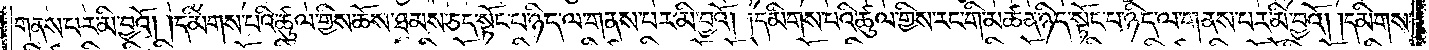གནས་པར་མི་བྱའོ། །དམིགས་པའི་ཚུལ་གྱིས་ཆོས་ཐམས་ཅད་སྟོང་པ་ཉིད་ལ་གནས་པར་མི་བྱའོ། །དམིགས་པའི་ཚུལ་གྱིས་རང་གི་མཚན་ཉིད་སྟོང་པ་ཉིད་ལ་གནས་པར་མི་བྱའོ། །དམིགས་
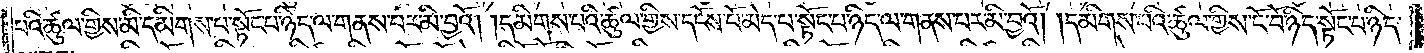པའི་ཚུལ་གྱིས་མི་དམིགས་པ་སྟོང་པ་ཉིད་ལ་གནས་པར་མི་བྱའོ། །དམིགས་པའི་ཚུལ་གྱིས་དངོས་པོ་མེད་པ་སྟོང་པ་ཉིད་ལ་གནས་པར་མི་བྱའོ། །དམིགས་པའི་ཚུལ་གྱིས་ངོ་བོ་ཉིད་སྟོང་པ་ཉིད་
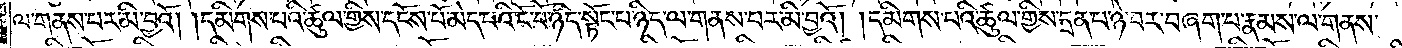ལ་གནས་པར་མི་བྱའོ། །དམིགས་པའི་ཚུལ་གྱིས་དངོས་པོ་མེད་པའི་ངོ་བོ་ཉིད་སྟོང་པ་ཉིད་ལ་གནས་པར་མི་བྱའོ། །དམིགས་པའི་ཚུལ་གྱིས་དྲན་པ་ཉེ་བར་བཞག་པ་རྣམས་ལ་གནས་
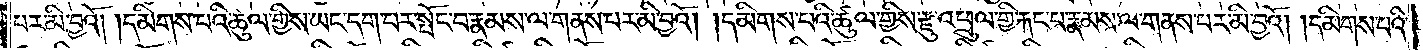པར་མི་བྱའོ། །དམིགས་པའི་ཚུལ་གྱིས་ཡང་དག་པར་སྤོང་བ་རྣམས་ལ་གནས་པར་མི་བྱའོ། །དམིགས་པའི་ཚུལ་གྱིས་རྫུ་འཕྲུལ་གྱི་རྐང་པ་རྣམས་ལ་གནས་པར་མི་བྱའོ། །དམིགས་པའི་
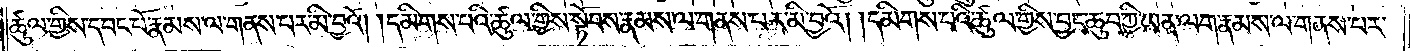ཚུལ་གྱིས་དབང་པོ་རྣམས་ལ་གནས་པར་མི་བྱའོ། །དམིགས་པའི་ཚུལ་གྱིས་སྟོབས་རྣམས་ལ་གནས་པར་མི་བྱའོ། །དམིགས་པའི་ཚུལ་གྱིས་བྱང་ཆུབ་ཀྱི་ཡན་ལག་རྣམས་ལ་གནས་པར་
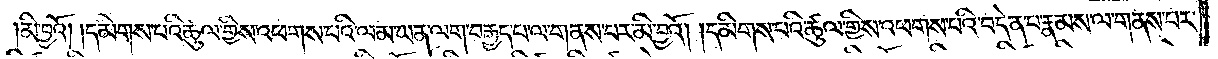མི་བྱའོ། །དམིགས་པའི་ཚུལ་གྱིས་འཕགས་པའི་ལམ་ཡན་ལག་བརྒྱད་པ་ལ་གནས་པར་མི་བྱའོ། །དམིགས་པའི་ཚུལ་གྱིས་འཕགས་པའི་བདེན་པ་རྣམས་ལ་གནས་པར་
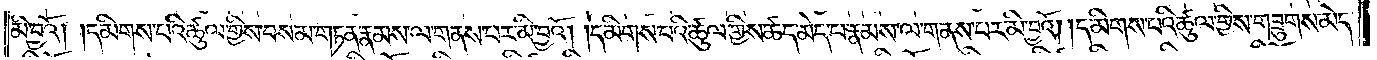མི་བྱའོ། །དམིགས་པའི་ཚུལ་གྱིས་བསམ་གཏན་རྣམས་ལ་གནས་པར་མི་བྱའོ། །དམིགས་པའི་ཚུལ་གྱིས་ཚད་མེད་པ་རྣམས་ལ་གནས་པར་མི་བྱའོ། །དམིགས་པའི་ཚུལ་གྱིས་གཟུགས་མེད་
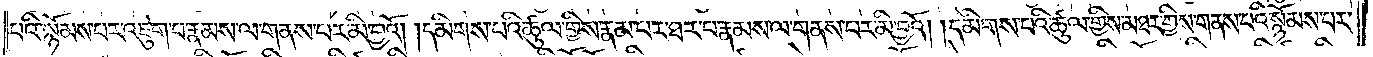པའི་སྙོམས་པར་འཇུག་པ་རྣམས་ལ་གནས་པར་མི་བྱའོ། །དམིགས་པའི་ཚུལ་གྱིས་རྣམ་པར་ཐར་པ་རྣམས་ལ་གནས་པར་མི་བྱའོ། །དམིགས་པའི་ཚུལ་གྱིས་མཐར་གྱིས་གནས་པའི་སྙོམས་པར་
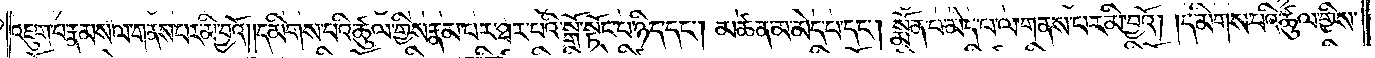འཇུག་པ་རྣམས་ལ་གནས་པར་མི་བྱའོ། །དམིགས་པའི་ཚུལ་གྱིས་རྣམ་པར་ཐར་པའི་སྒོ་སྟོང་པ་ཉིད་དང༌། མཚན་མ་མེད་པ་དང༌། སྨོན་པ་མེད་པ་ལ་གནས་པར་མི་བྱའོ། །དམིགས་པའི་ཚུལ་གྱིས་
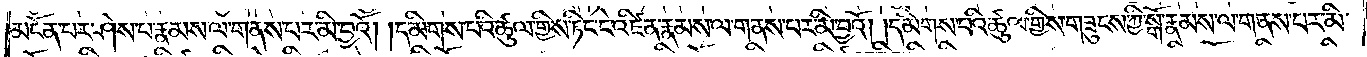མངོན་པར་ཤེས་པ་རྣམས་ལ་གནས་པར་མི་བྱའོ། །དམིགས་པའི་ཚུལ་གྱིས་ཏིང་ངེ་འཛིན་རྣམས་ལ་གནས་པར་མི་བྱའོ། །དམིགས་པའི་ཚུལ་གྱིས་གཟུངས་ཀྱི་སྒོ་རྣམས་ལ་གནས་པར་མི་
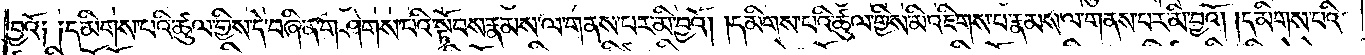བྱའོ༏ ༏དམིགས་པའི་ཚུལ་གྱིས་དེ་བཞིན་གཤེགས་པའི་སྟོབས་རྣམས་ལ་གནས་པར་མི་བྱའོ། །དམིགས་པའི་ཚུལ་གྱིས་མི་འཇིགས་པ་རྣམས་ལ་གནས་པར་མི་བྱའོ། །དམིགས་པའི་
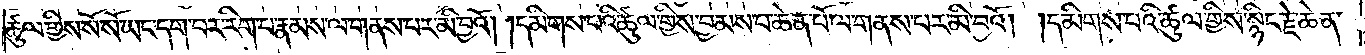ཚུལ་གྱིས་སོ་སོ་ཡང་དག་པར་རིག་པ་རྣམས་ལ་གནས་པར་མི་བྱའོ། །དམིགས་པའི་ཚུལ་གྱིས་བྱམས་པ་ཆེན་པོ་རྣམས་ལ་གནས་པར་མི་བྱའོ། །དམིགས་པའི་ཚུལ་གྱིས་སྙིང་རྗེ་ཆེན་
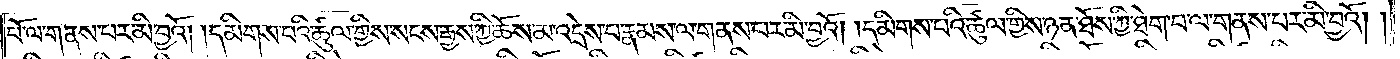པོ་ལ་གནས་པར་མི་བྱའོ། །དམིགས་པའི་ཚུལ་གྱིས་སངས་རྒྱས་ཀྱི་ཆོས་མ་འདྲེས་པ་རྣམས་ལ་གནས་པར་མི་བྱའོ། །དམིགས་པའི་ཚུལ་གྱིས་ཉན་ཐོས་ཀྱི་ཐེག་པ་ལ་གནས་པར་མི་བྱའོ། །
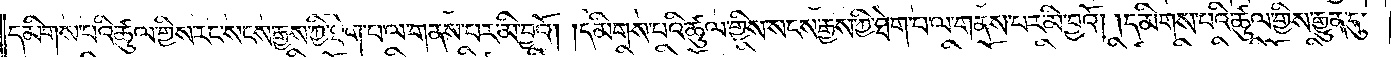དམིགས་པའི་ཚུལ་གྱིས་རང་སངས་རྒྱས་ཀྱི་ཐེག་པ་ལ་གནས་པར་མི་བྱའོ། །དམིགས་པའི་ཚུལ་གྱིས་སངས་རྒྱས་ཀྱི་ཐེག་པ་ལ་གནས་པར་མི་བྱའོ། །དམིགས་པའི་ཚུལ་གྱིས་རྒྱུན་དུ་
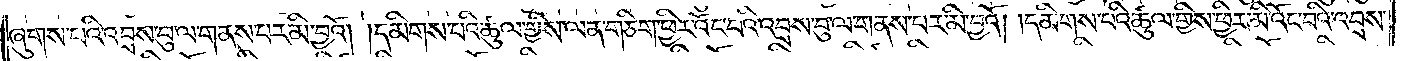ཞུགས་པའི་འབྲས་བུ་ལ་གནས་པར་མི་བྱའོ། །དམིགས་པའི་ཚུལ་གྱིས་ལན་ཅིག་ཕྱིར་འོང་བའི་འབྲས་བུ་ལ་གནས་པར་མི་བྱའོ། །དམིགས་པའི་ཚུལ་གྱིས་ཕྱིར་མི་འོང་བའི་འབྲས་
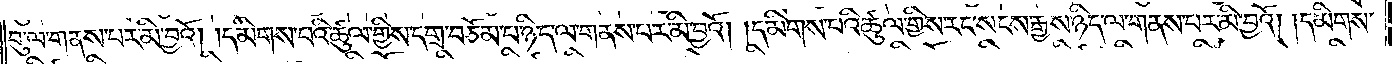བུ་ལ་གནས་པར་མི་བྱའོ། །དམིགས་པའི་ཚུལ་གྱིས་དགྲ་བཅོམ་པ་ཉིད་ལ་གནས་པར་མི་བྱའོ། །དམིགས་པའི་ཚུལ་གྱིས་རང་སངས་རྒྱས་ཉིད་ལ་གནས་པར་མི་བྱའོ། །དམིགས་
